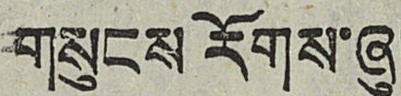གསུངས རོགས་ཞུ།
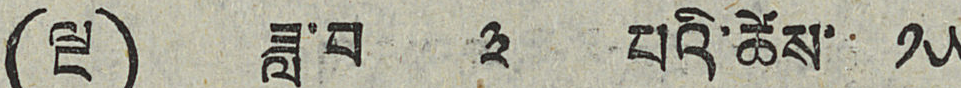(ལྔ) ཟླ་བ ༣ པའི་ཚེས་ ༡༥
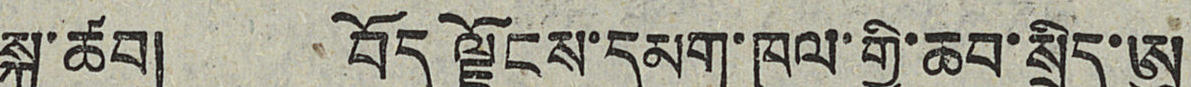སྐུ་ཚབ། བོད ལྗོངས་དམག་ཁུལ་གྱི་ཆབ་སྲིད་ཨུ
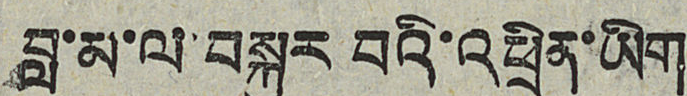བླ་མ་ལ་བསྐུར བའི་འཕྲིན་ཡིག
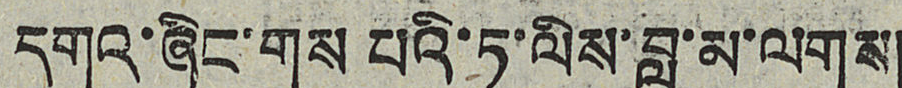དགའ་ཞིང་གུས པའི་ཏ་ལིས་བླ་མ་ལགས།
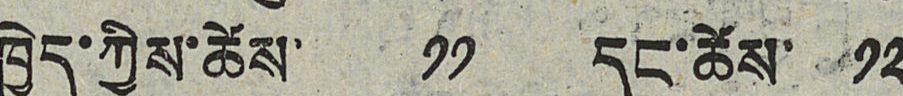ཁྱེད་ཀྱིས་ཚེས་ ༡༡ དང་ཚེས་ ༡༢
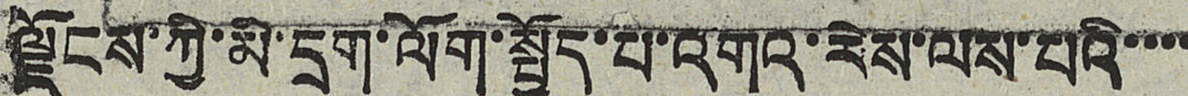ལྗོངས་ཀྱི་མི་དྲག་ལོག་སྤྱོད་པ་འགའ་རེས་ལས་པའི་་་་
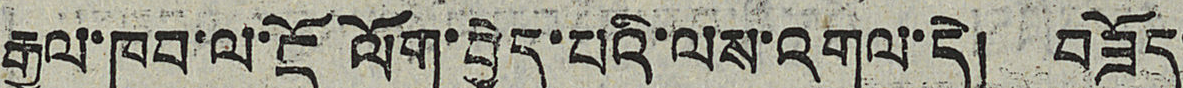རྒྱལ་ཁབ་ལ་ངོ ལོག་བྱེད་པའི་ལས་འགུལ་དེ། བཟོད་
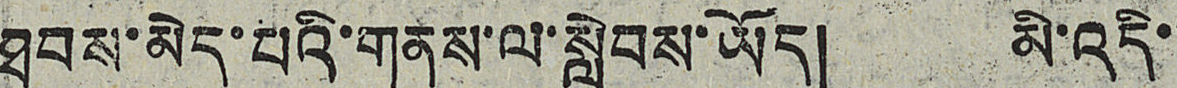ཐབས་མེད་པའི་གནས་ལ་སླེབས་ཡོད། མེ་འདི་་
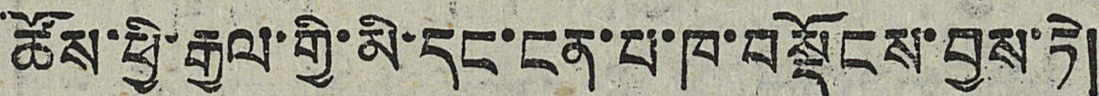ཚོས་ཕྱི་རྒྱལ་གྱི་མི་དང་ངན་པ་ཁ་བསྡོངས་བྱས་ཏེ།
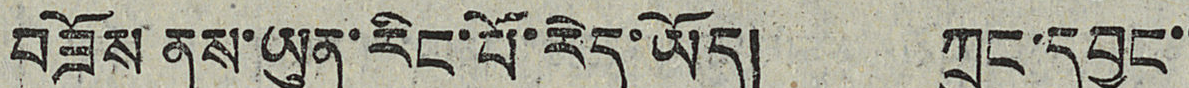བཟོས ནས་ཡུན་རིང་པོ་རེད་ཡོད། ཀྲུང་དབྱང་་
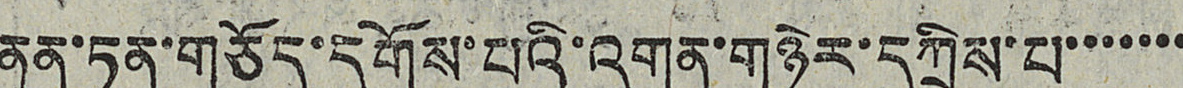ནན་ཏན་གཅོད་དགོས་པའི་འགན་གཉེར་དཀྲིས་པ་་་་་་་
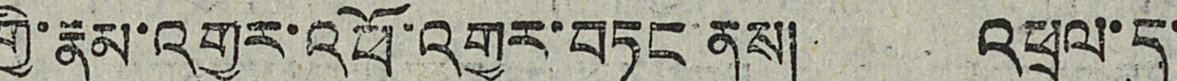གྱི་རྣམ་འགྱུར་འཕོ་འགྱུར་བཏང ནས། འཕྲལ་དུ་
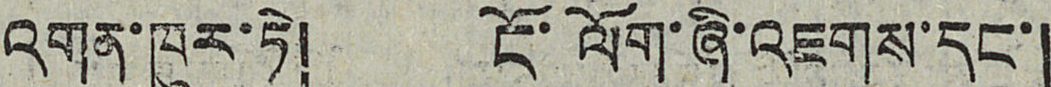འགན་ཁུར་ཏེ། ངོ་ལོག་ཞི་འཇགས་དང་།
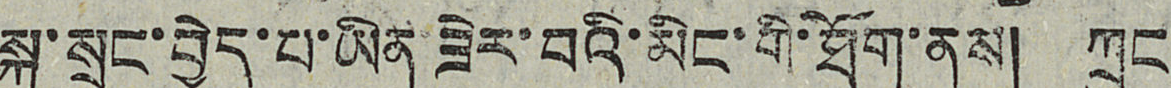སྐུ་སྲུང་བྱེད་པ་ཡིན ཟེར་བའི་མིང་གི་ཐོག་ནས། ཀྲུང་
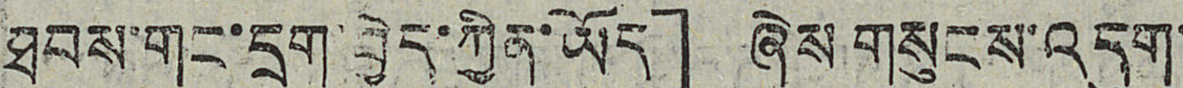ཐབས་གང་དྲག་བྱེད་ཀྱིན་ཡོད」 ཞེས་གསུངས་འདུག་
